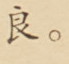良。
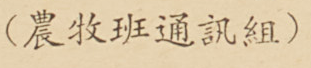（農牧班通訊組）
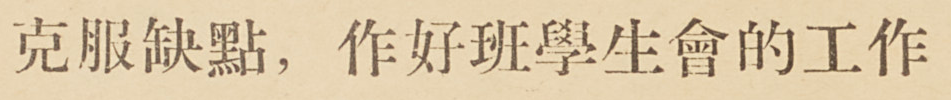克服缺點，作好班學生會的工作
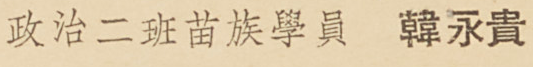政治二班苗族學員 韓永貴
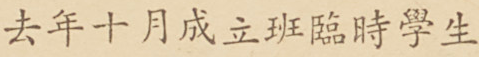去年十月成立班臨時學生
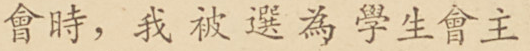會時，我被選爲學生會主
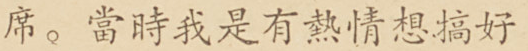席。當時我是有熱情想搞好
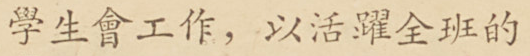學生會工作，以活躍全班的
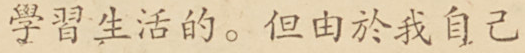學習生活的。但由於我自己
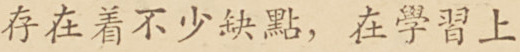存在着不少缺點，在學習上
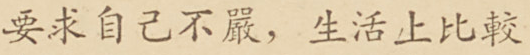要求自己不嚴，生活上比較
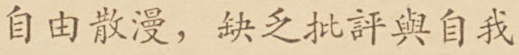自由散漫，缺乏批評與自我
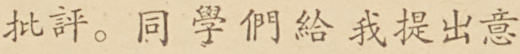批評。同學們給我提出意
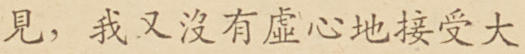見，我又沒有虛心地接受大
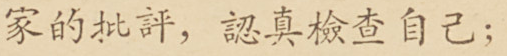家的批評，認真檢查自己；
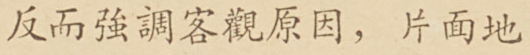反而強調客觀原因，片面地
